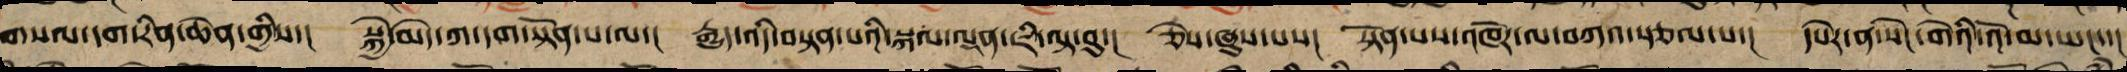གསལ་དག་རིན་ཆེན་གྱིས་། སྐྱེ་མེད་ཀ་དག་སྟོན་པ་ལ་། རྒྱུད་འདི་བསྟན་པའི་སྐལ་ལྡན་ཇི་ལྟ་བུ་། ཞེས་ཞུས་པས་། སྟོན་པས་འཁོར་ལ་བཀའ་སྩལ་པ་། དཔེར་ན་སེང་གེའི་འོ་མ་ཡང་།
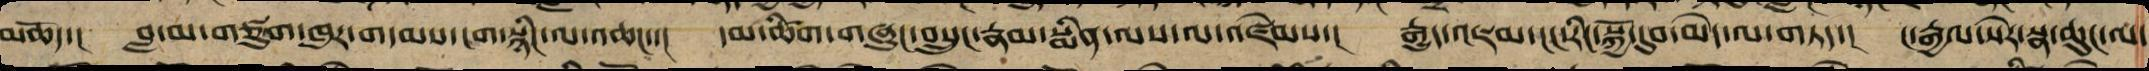མཆོད་། བླ་མ་གཙུག་ཁུར་གདམས་ངག་སྙིང་ལ་འཆང་་། དམ་ཚིག་གཞུང་བསྲུང་རྣམ་སྨིན་ལས་ལ་འཛེམས་། རྒྱུད་འཇམ་ངང་རིང་སྐྱོ་དུབ་མེད་ལ་གཏད་། ང་རྒྱལ་སེར་སྣ་ཆུང་ལ་
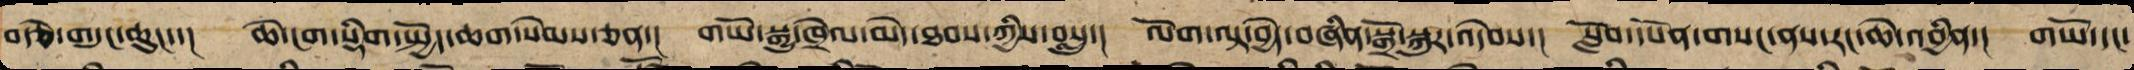བརྩེ་གདུང་ཆུང་་། ཆེ་ངག་སྡིག་སྤྱོད་ཆག་སེམས་ཅན་། གཡོ་སྒྱུ་ཁྲེལ་མེད་ཐབས་ཀྱིས་བསླུ་། ལོག་ལྟ་བྱེད་ཅིང་སྒྲོ་སྐུར་འདེབས་། སློབ་དཔོན་གསང་ནས་རང་ཆེ་འབྱིན་། གཡོ་དང་
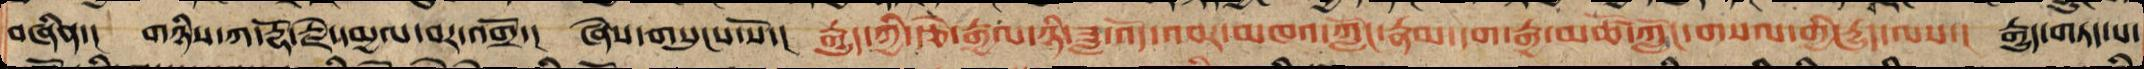བཞིན་། གཉིས་ཀ་རྡོ་རྗེ་དམྱལ་བར་འགྲོ་། ཞེས་གསུངས་སོ་། རྒྱུད་ཀྱི་རྩེ་རྒྱལ་ཉི་ཟླ་འོད་འབར་མཁའ་ཀློང་རྣམ་དག་རྒྱ་མཚོ་ཀློང་གསལ་གྱི་རྒྱུད་ལས་། རྒྱུད་གཏད་པ་
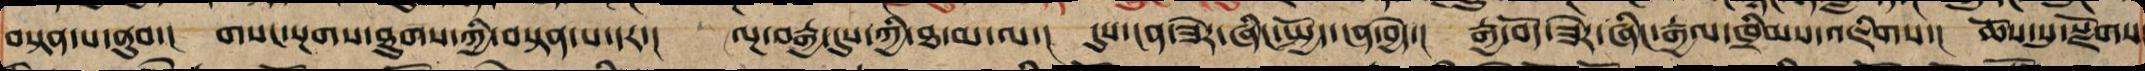བསྟན་པ་ནུབ་། གསང་སྔགས་ཐུགས་ཀྱི་བསྟན་པ་དར་། ལྔ་བརྒྱ་དུས་ཀྱི་ཐ་མ་ལ་། དུས་ངན་ཟེར་ཞིང་སྤྱོད་ངན་བྱེད་། རྒྱ་བོད་ཟེར་ཞིང་རྒྱལ་ཁྲིམས་འཇིགས། ཆོས་སུ་སྫོགས་
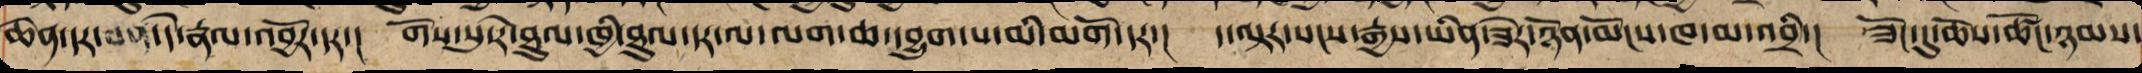ཆེན་དར་བན་དེ་རྣལ་འབྱོར་དར་། གོས་སུ་རེ་ཐུལ་ཁྱི་ཐུལ་དར་ལ་ལག་ཆ་དབྱུག་པ་མི་མགོ་དར་། ད་ལྟ་སངས་རྒྱས་ཡིན་ཟེར་ཉོན་མོངས་ཁ་མ་འབྲི་། ཟོང་དུ་ཆོས་ཚོང་ཉམས་
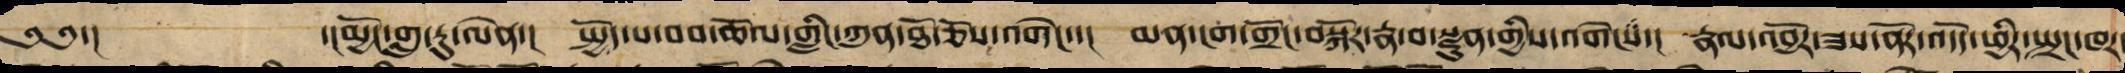༄༅་། ་།མྱོང་གླུ་རུ་ལེན་། སྤྱོད་པ་བབ་ཆོལ་གླིང་ཀུན་ཐོ་ཅོས་འགེང་་། མན་ངག་གྲོང་བསྐོར་རྣ་བ་སྫུན་གྱིས་འགེངས་། རྣལ་འབྱོར་ཟས་ནོར་འདོད་ཕྱིར་སྲང་ཁར
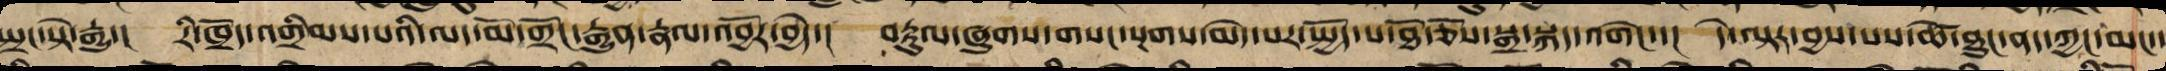སྤྲང་སྟེ་རྒྱུ་། རི་ཁྲོད་འགྲིམས་པའི་ལད་མོ་གྲོང་རྒྱུན་རྣལ་འབྱོར་བྱེད་། བརྟུལ་ཞུགས་གསང་སྔགས་མེད་པར་སྤྱོད་པ་ཐོ་ཅོས་སྒྲ་སྐད་འགེང་། དེ་ལྟར་བྱས་པས་ཚེ་ཐུང་ནད་ཀྱང་མང་།
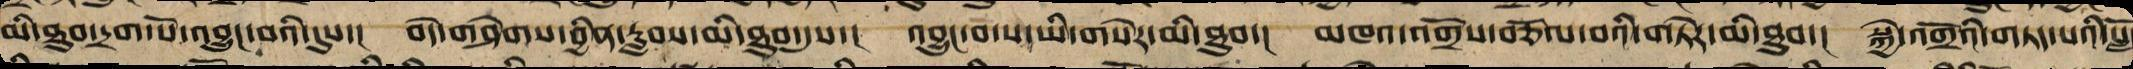མི་ཐུབ་དྲུག་པོ་འབྱུང་བའི་དུས་། བདེ་གཤེགས་བྱིན་རླབས་མི་ཐུབ་དུས་། འབྱུང་བ་ས་ཡིས་གསེར་མི་ཐུབ་། མཁའ་འགྲོས་བཅོལ་བའི་གཏེར་མི་ཐུབ་། སྐྱེ་འགྲོའི་གཏད་པའི་སློ
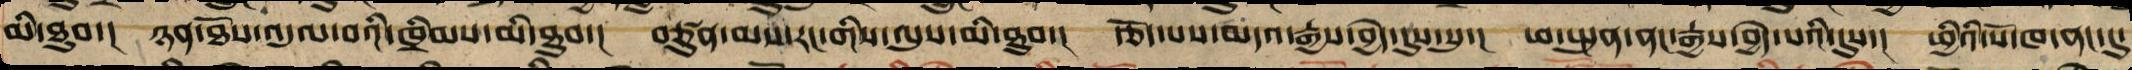མི་ཐུབ་། ཉན་ཐོས་འདུལ་བའི་ཁྲིམས་མི་ཐུབ་། བཙུན་མས་རང་གི་ལུས་མི་ཐུབ་། བཙུན་པས་མདའ་རྒྱག་བྱེད་དུས་སུ་། ཕ་སྤུན་ནང་རྒྱས་བྱེད་པའི་དུས་། ཕྱིའི་སོ་ཁ་ནང་དུ་
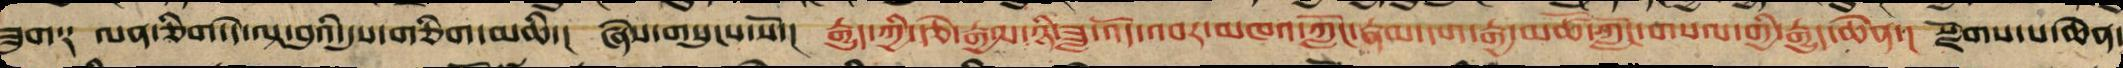ཟུག༑ ལན་གཅིག་དེ་ལྟ་བུའི་དུས་གཅིག་མཆི་། ཞེས་གསུངས་སོ་། རྒྱུད་ཀྱི་རྩེ་རྒྱལ་ཉི་ཟླ་འོད་འབར་མཁའ་ཀློང་རྣམ་དག་རྒྱ་མཚོ་ཀློང་གསལ་གྱི་རྒྱུད་ཆེན་། སྫོགས་པ་ཆེན་
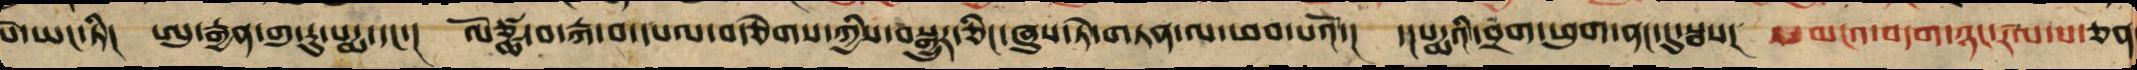པོ་ཡང་ཏི་། ཨུ་རྒྱན་གུ་རུ་པདྨ་དང་། ལོཙྩ་བ་སྐ་བ་དཔལ་བརྩེགས་ཀྱིས་བསྒྱུར་ཅིང་ཞུས་ཏེ་གཏན་ལ་ཕབ་པའོ་།། ༈ །་།པདྨའི་བྲག་ཕུག་ནང་དུ་སྦས། མངའ་བདག་ཉང་རལ་པ་ཅན
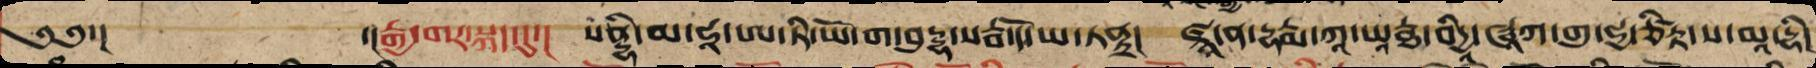༄༅་།    ་།རྒྱ་གར་སྐད་དུ་། སནྟི་མ་ཧཱ་ཨ་ཏི་ཡོ་ག་བུཌྜྷ་སརྦ་དོ་ཡ་ཏནྟྲ། ཛྙཱ་ན་དྷརྨཱ་ཀཱ་ཡཱརྠ་བིདྱཱ་ཝཱཀ་གུ་ཧྱ་ཙིཏྟ་ས་མཱ་དྷི་
